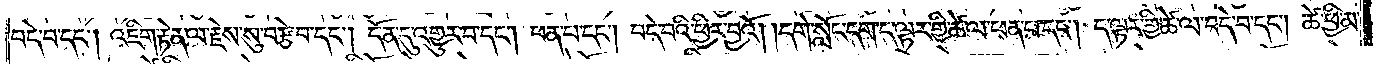བདེ་བ་དང༌། འཇིག་རྟེན་ལ་རྗེས་སུ་བརྩེ་བ་དང༌། དོན་དུ་འགྱུར་བ་དང༌། ཕན་པ་དང༌། བདེ་བའི་ཕྱིར་བྱའོ། །དགེ་སློང་དག་ད་ལྟར་གྱི་ཚེ་ལ་ཕན་པ་དང༌། ད་ལྟར་གྱི་ཚེ་ལ་བདེ་བ་དང༌། ཚེ་ཕྱི་མ་
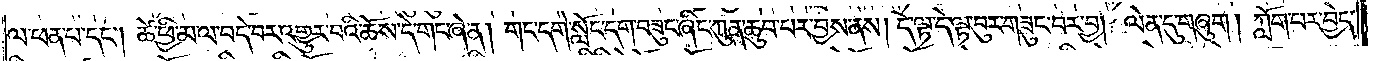ལ་ཕན་པ་དང༌། ཚེ་ཕྱི་མ་ལ་བདེ་བར་འགྱུར་བའི་ཆོས་དེ་གང་ཞེ་ན། གང་དགེ་སློང་དག་བཟུང་ཞིང་ཀུན་ཆུབ་པར་བྱས་ནས། དེ་ལྟ་དེ་ལྟ་བུར་གཟུང་བར་བྱ། ལེན་དུ་གཞུག །ཀློག་པར་བྱེད་
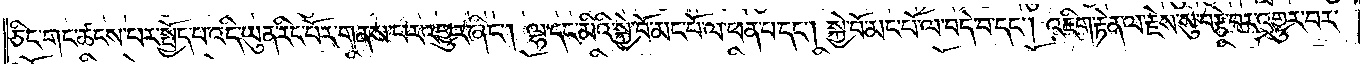ཅིང་གང་ཚངས་པར་སྤྱོད་པ་འདི་ཡུན་རིང་པོར་གནས་པར་འགྱུར་ཞིང༌། ལྷ་དང་མིའི་སྐྱེ་བོ་མང་པོ་ལ་ཕན་པ་དང༌། སྐྱེ་བོ་མང་པོ་ལ་བདེ་བ་དང༌། འཇིག་རྟེན་ལ་རྗེས་སུ་བརྩེ་བར་འགྱུར་བར་
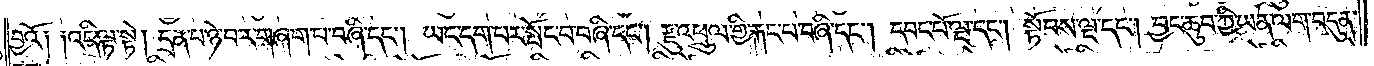བྱའོ༑ །འདི་ལྟ་སྟེ། དྲན་པ་ཉེ་བར་གཞག་པ་བཞི་དང༌། ཡང་དག་པར་སྤོང་བ་བཞི་དང༌། རྫུ་འཕྲུལ་གྱི་རྐང་པ་བཞི་དང༌། དབང་པོ་ལྔ་དང༌། སྟོབས་ལྔ་དང༌། བྱང་ཆུབ་ཀྱི་ཡན་ལག་བདུན་
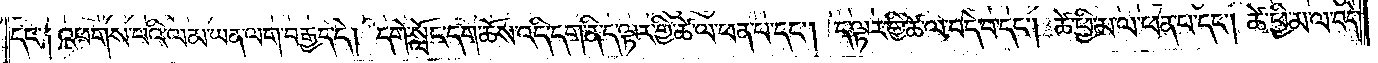དང༌། འཕགས་པའི་ལམ་ཡན་ལག་བརྒྱད་དེ། དགེ་སློང་དག་ཆོས་འདི་དག་ནི་ད་ལྟར་གྱི་ཚེ་ལ་ཕན་པ་དང༌། ད་ལྟར་གྱི་ཚེ་ལ་བདེ་བ་དང༌། ཚེ་ཕྱི་མ་ལ་ཕན་པ་དང༌། ཚེ་ཕྱི་མ་ལ་བདེ་
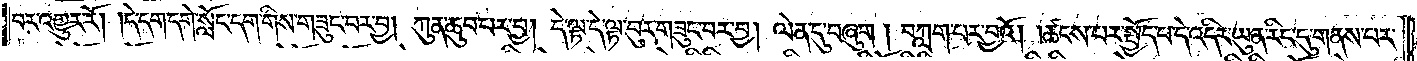བར་འགྱུར་རོ། །དེ་དག་དགེ་སློང་དག་གིས་གཟུང་བར་བྱ། ཀུན་ཆུབ་པར་བྱ། དེ་ལྟ་དེ་ལྟ་བུར་གཟུང་བར་བྱ། ལེན་དུ་བཞུག །བཀླག་པར་བྱའོ། །ཚངས་པར་སྤྱོད་པ་དེ་འདིར་ཡུན་རིང་དུ་གནས་པར་
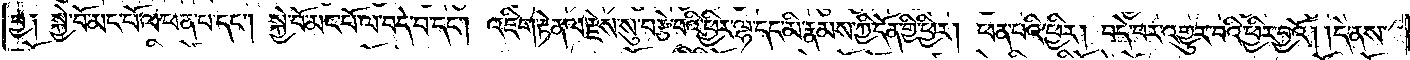བྱ༑ སྐྱེ་བོ་མང་པོ་ལ་ཕན་པ་དང༌། སྐྱེ་བོ་མང་པོ་ལ་བདེ་བ་དང༌། འཇིག་རྟེན་ལ་རྗེས་སུ་བརྩེ་བའི་ཕྱིར་ལྷ་དང་མི་རྣམས་ཀྱི་དོན་གྱི་ཕྱིར། ཕན་པའི་ཕྱིར། བདེ་བར་འགྱུར་བའི་ཕྱིར་བྱའོ། །དེ་ནས་
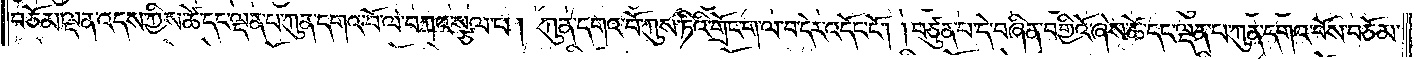བཅོམ་ལྡན་འདས་ཀྱིས་ཚེ་དང་ལྡན་པ་ཀུན་དགའ་བོ་ལ་བཀའ་སྩལ་པ། ཀུན་དགའ་བོ་ཀུས་ཏིའི་གྲོང་ག་ལ་བ་དེར་འདོང་ངོ༌། །བཙུན་པ་དེ་བཞིན་བགྱིའོ་ཞེས་ཚེ་དང་ལྡན་པ་ཀུན་དགའ་བོས་བཅོམ་
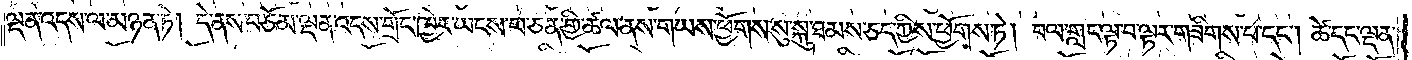ལྡན་འདས་ལ་མཉན་ཏེ། དེ་ནས་བཅོམ་ལྡན་འདས་གྲོང་ཁྱེར་ཡངས་པ་ཅན་གྱི་ཚལ་ནས་གཡས་ཕྱོགས་སུ་སྐུ་ཐམས་ཅད་ཀྱིས་ཕྱོགས་ཏེ། བལ་གླང་ལྟ་བ་ལྟར་གཟིགས་བ་དང༌། ཚེ་དང་ལྡན་
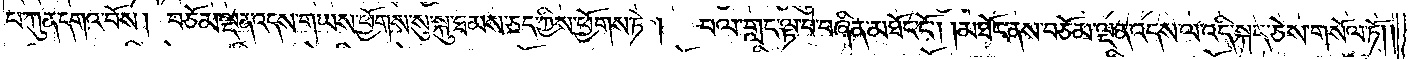པ་ཀུན་དགའ་བོས། བཅོམ་ལྡན་འདས་གཡས་ཕྱོགས་སུ་སྐུ་ཐམས་ཅད་ཀྱིས་ཕྱོགས་ཏེ། བལ་གླང་ལྟ་བ་བཞིན་མཐོང་ངོ༌། །མཐོང་ནས་བཅོམ་ལྡན་འདས་ལ་འདི་སྐད་ཅེས་གསོལ་ཏོ། །
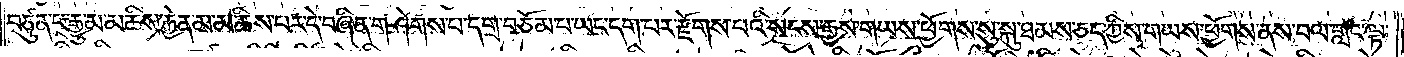བཙུན་པ་རྒྱུ་མ་མཆིས་རྐྱེན་མ་མཆིས་པར་དེ་བཞིན་གཤེགས་པ་དགྲ་བཅོམ་པ་ཡང་དག་པར་རྫོགས་པའི་སངས་རྒྱས་གཡས་ཕྱོགས་སུ་སྐུ་ཐམས་ཅད་ཀྱིས་གཡས་ཕྱོགས་ནས་བལ་གླང་ལྟ་
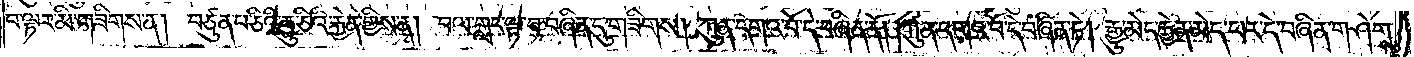བ་ལྟར་མི་གཟིགས་ན། བཙུན་བ་ཅིའི་རྒྱུ་ཅིའི་རྐྱེན་གྱིས་ན། བལ་གླང་ལྟ་བ་བཞིན་དུ་གཟིགས། ཀུན་དགའ་བོ་དེ་བཞིན་ནོ། །ཀུན་དགའ་བོ་དེ་བཞིན་ཏེ། རྒྱུ་མེད་རྐྱེན་མེད་པར་དེ་བཞིན་གཤེགས་
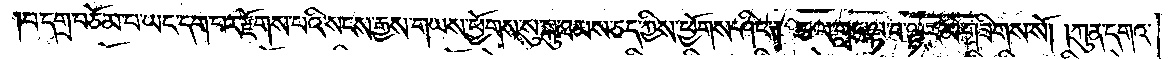པ་དགྲ་བཅོམ་པ་ཡང་དག་པར་རྫོགས་པའི་སངས་རྒྱས་གཡས་ཕྱོགས་སུ་སྐུ་ཐམས་ཅད་ཀྱིས་ཕྱོགས་ཤིང༌། བལ་གླང་ལྟ་བ་ལྟར་མི་གཟིགས་སོ། །ཀུན་དགའ་
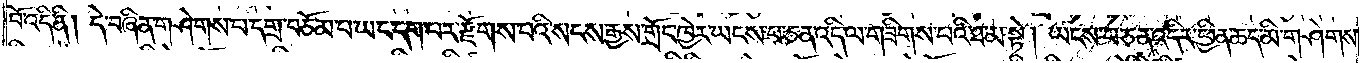བོ་འདི་ནི། དེ་བཞིན་གཤེགས་པ་དགྲ་བཅོམ་པ་ཡང་དག་པར་རྫོགས་པའི་སངས་རྒྱས་གྲོང་ཁྱེར་ཡངས་པ་ཅན་འདི་ལ་གཟིགས་པའི་ཐ་མ་སྟེ། ཡངས་པ་ཅན་འདིར་ཕྱིན་ཆད་མི་གཤེགས་
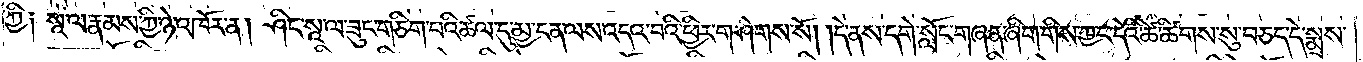ཀྱི༑ སཱ་ལ་རྣམས་ཀྱི་ཉེ་འཁོར་ན། ཤིང་སཱ་ལ་ཟུང་གཅིག་པའི་ཚལ་དུ་མྱ་ངན་ལས་འདའ་བའི་ཕྱིར་གཤེགས་སོ། །དེ་ནས་དགེ་སློང་གཞན་ཞིག་གིས་ཀྱང་དེའི་ཚེ་ཚིགས་སུ་བཅད་དེ་སྨྲས་
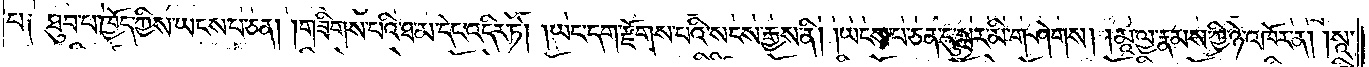པ༑ ཐུབ་པ་ཁྱོད་ཀྱིས་ཡངས་པ་ཅན། །གཟིགས་པའི་ཐ་མ་དེང་འདིར་ཏེ། །ཡང་དག་རྫོགས་པའི་སངས་རྒྱས་ནི། །ཡངས་པ་ཅན་དུ་སླར་མི་གཤེགས། །མཱ་ལྱ་རྣམས་ཀྱི་ཉེ་འཁོར་ན། །སཱ་
